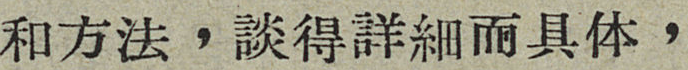和方法，談得詳細而具体，
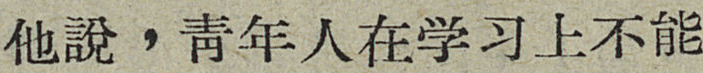他說，靑年人在学习上不能
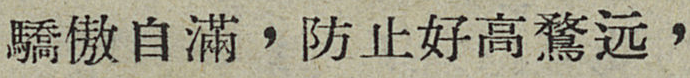驕傲自滿，防止好高鶩远，
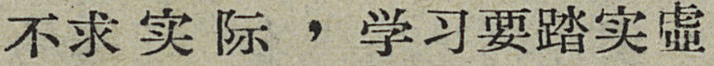不求实际，学习要踏实虛
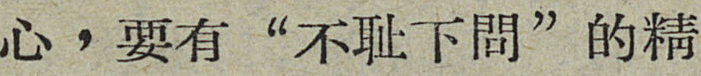心，要有“不耻下問”的精
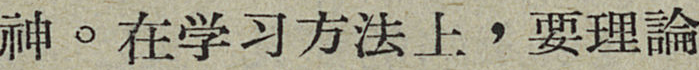神。在学习方法上，要理論
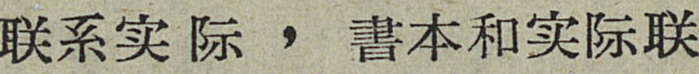联系实际，書本和实际联
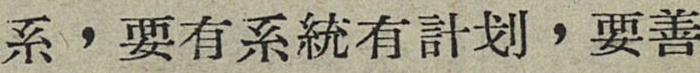系，要有系統有計划，要善
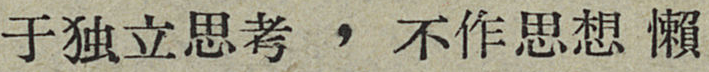于独立思考，不作思想懶
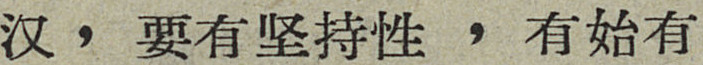汉，要有坚持性，有始有
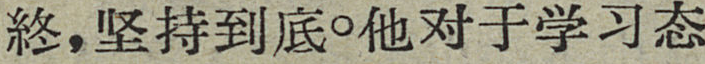終，坚持到底。他对于学习态
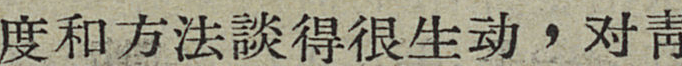度和方法談得很生动，对靑
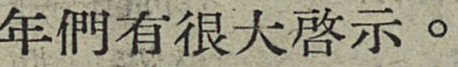年們有很大啓示。
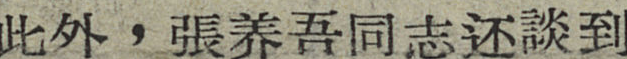此外，張养吾同志还談到
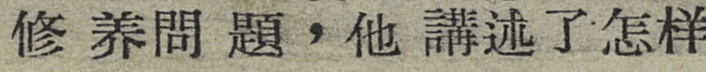修养問題，他講述了怎样
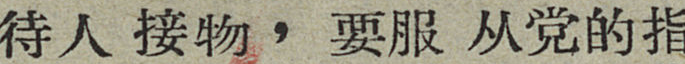待人接物，要服从党的指
